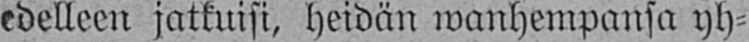edelleen jatkuisi, heidän wanhempansa yh-
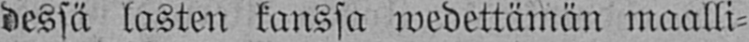dessä lasten kanssa wedettämän maalli-
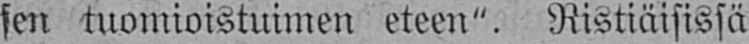sen tuomioistuimen eteen". Ristiäisissä
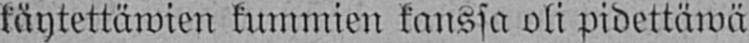käytettäwien kummien kanssa oli pidettäwä
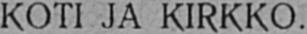KOTI JA KIRKKO.
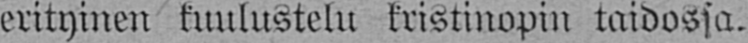erityinen kuulustelu kristinopin taidossa.
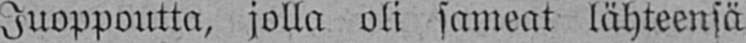Juoppoutta, jolla oli sameat lähteensä
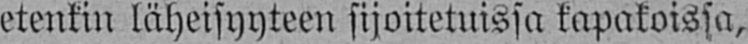etenkin läheisyyteen sijoitetuissa kapakoissa,
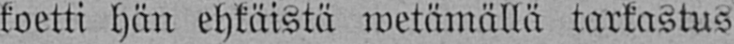koetti hän ehkäistä wetämällä tarkastus-
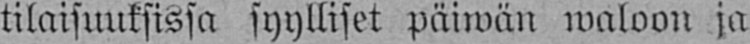tilaisuuksissa syylliset päiwän waloon ja
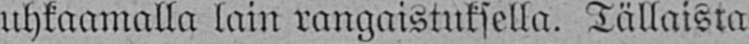uhkaamalla lain rangaistuksella. Tällaista
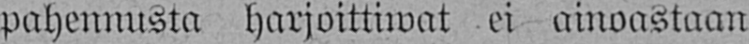pahennusta harjoittiwat ei ainoastaan
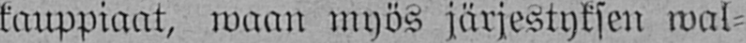kauppiaat, waan myös järjestyksen wal-
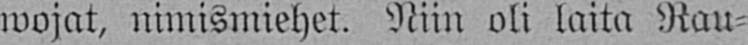wojat, nimismiehet. Niin oli laita Rau-
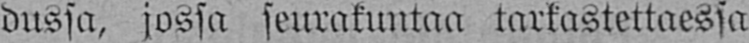dussa, jossa seurakuntaa tarkastettaessa
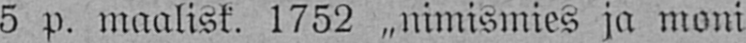5 p. maalisk. 1752 „nimismies ja moni
